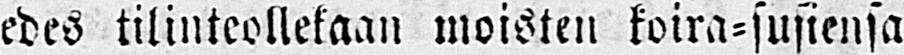edes tilinteollekaan moisten koira-susiensa
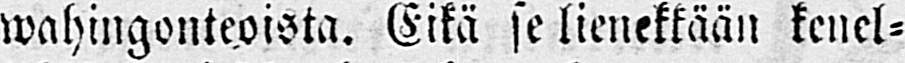wahingonteoista. Eikä se lienekään kenel-
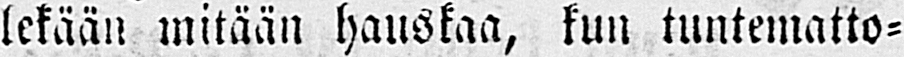lekään mitään hauskaa, kun tuntematto-
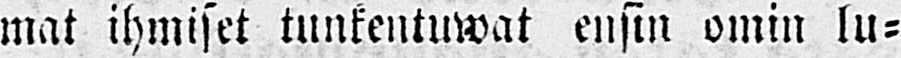mat ihmiset tunkeutuwat ensin omin lu-
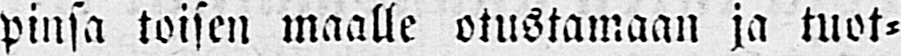pinsa toisen maalle otustamaan ja tuot-
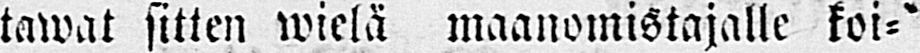tawat sitten wielä maanomistajalle koi-
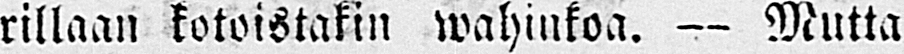rillaan kotoistakin wahinkoa. — Mutta
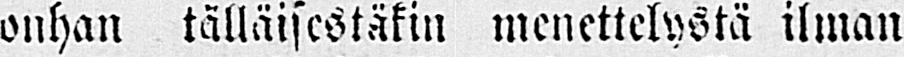onhan tälläisestäkin menettelystä ilman
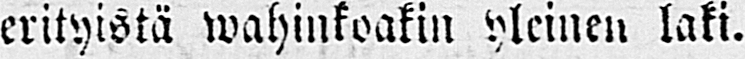erityistä wahinkoakin yleinen laki.
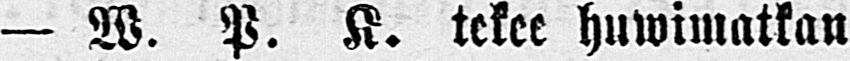— W. P. K. tekee huwimatkan
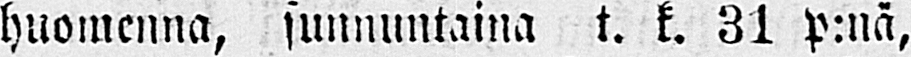huomenna, sunnuntaina t. k. 31 p:nä,
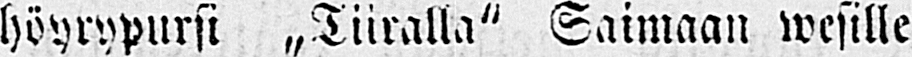höyrypursi „Tiiralla" Saimaan wesille
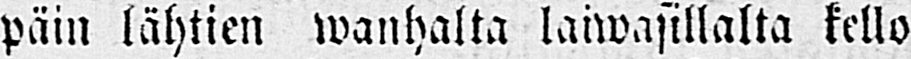päin lähtien wanhalta laiwasillalta kello
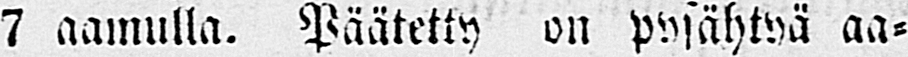7 aamulla. Päätetty on pysähtyä aa-
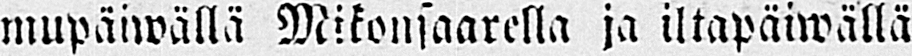mupäiwällä Mikonsaarella ja iltapäiwällä
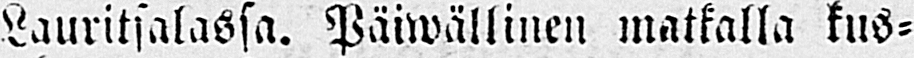Lauritsalassa. Päiwällinen matkalla kus-
